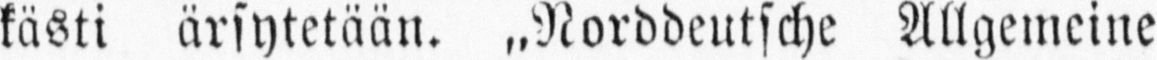kästi ärsytetään. ˶Norddeutsche Allgemeine
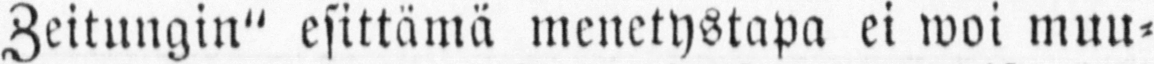Zeitungin" esittämä menetystapa ei woi muu-
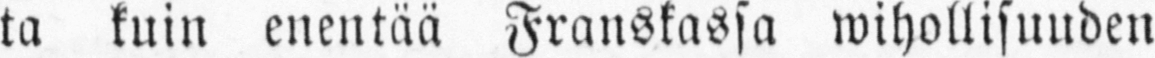ta kuin enentää Franskassa wihollisuuden
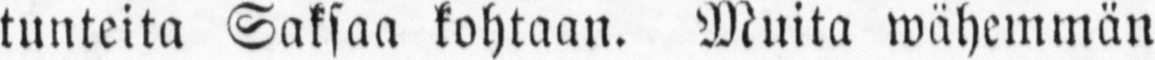tunteita Saksaa kohtaan. Muita wähemmän
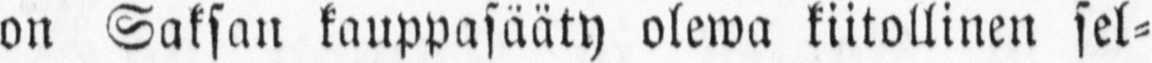on Saksan kauppasääty olewa kiitollinen sel-
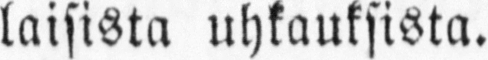laisista uhkauksista.
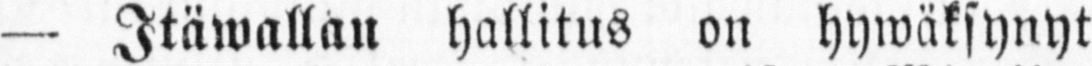— Itäwallan hallitus on hywäksynyt
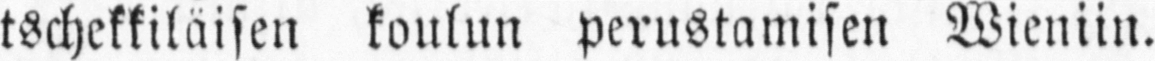tschekkiläisen koulun perustamisen Wieniin.
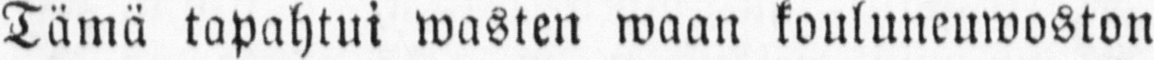Tämä tapahtui wasten waan kouluneuwoston
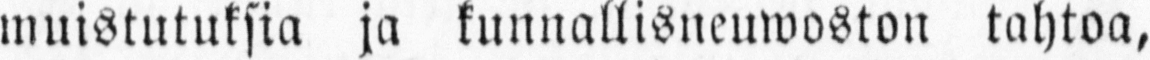muistutuksia ja kunnallisneuwoston tahtoa,
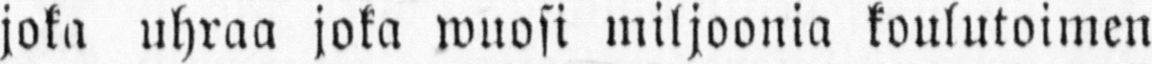joka uhraa joka wuosi miljoonia koulutoimen
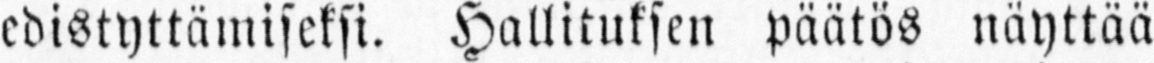edistyttämiseksi. Hallituksen päätös näyttää
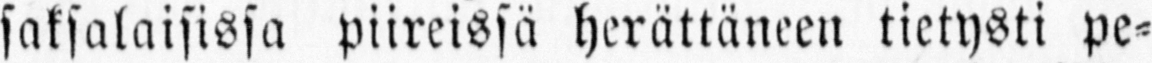saksalaisissa piireissä herättäneen tietysti pe-
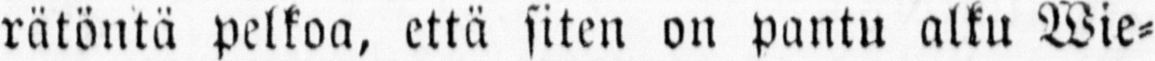rätöntä pelkoa, että siten on pantu alku Wie-
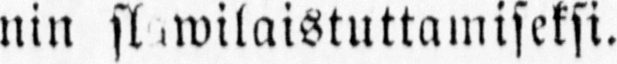nin slawilaistuttamiseksi.
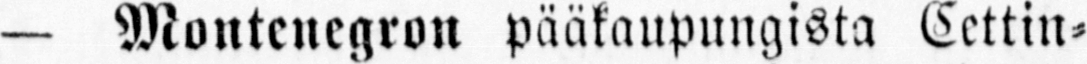— Montenegron pääkaupungista Cettin-
